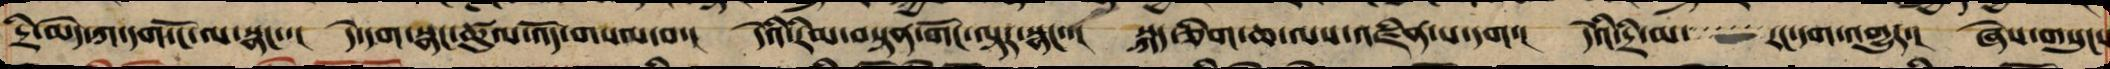དྲི་མེད་ཀ་དག་ངོ་ལ་སྣང་་། དེ་དག་སྣང་ཚུལ་འོད་གསལ་བ་། དེའི་རིམ་བསྟན་གོང་ལྟར་སྣང་་། སྐད་ཅིག་ཆ་ལས་འཛིན་པ་དག་། དེའི་དྲི་མ་ རང་དག་འགྱུར་། ཞེས་གསུངས
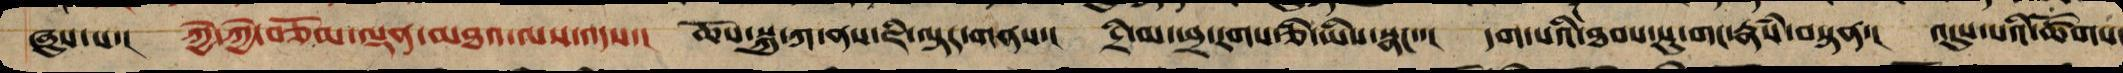ཞུས་པ་། ཀྱེ་ཀྱེ་བཅོམ་ལྡན་མཐའ་ལས་འདས་། ཆོས་སྐུ་ཀ་ནས་ཇི་ལྟར་གནས་། དྲི་མ་ཕྲ་རགས་ཅི་ཡིས་སྣང་་། དག་པའི་ཐབས་སུ་གང་རྣཾས་བསྟན་། འདུས་པའི་ཚོགས་
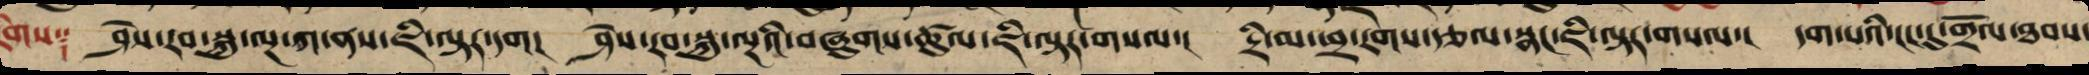གས༑ ཤེས་རབ་སྐུ་ལྔ་ཀ་ནས་ཇི་ལྟར་དག། ཤེས་རབ་སྐུ་ལྔའི་བཞུགས་ཚུལ་ཇི་ལྟར་གསལ་། དྲི་མ་ཕྲ་རགས་རྩལ་སྣང་ཇི་ལྟར་གསལ་། དག་པའི་ངང་དུ་གྲོལ་ཐབས་
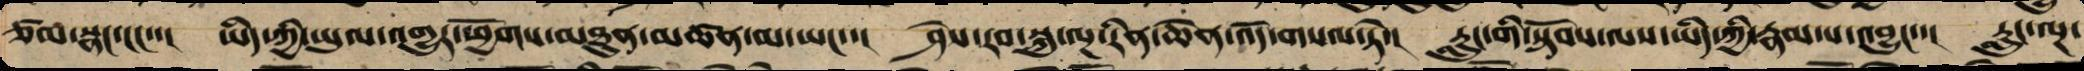ཙམ་སྣང་ངང་་། ཡིད་ཀྱི་ཡུལ་འགྱུར་ཕྱོགས་མཐུན་མཚན་མ་ཡང་་། ཤེས་རབ་སྐུ་ལྔ་རིན་ཆེན་འོད་གསལ་ཏེ་། རླུང་གི་སྟོབས་ལས་ཡིད་ཀྱི་རྣམ་པ་འབྱུང་་། རླུང་ལྔ་
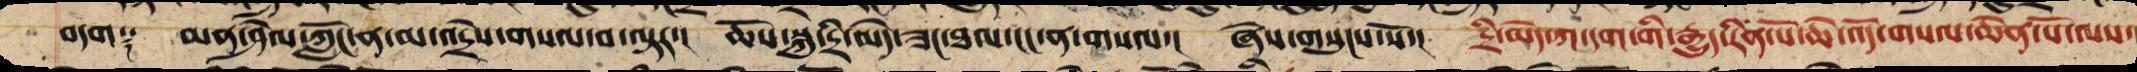བདག༑ མན་ཤེལ་ཀློང་ན་མ་འདྲེས་གསལ་བ་ལྟར་། ཆོས་སྐུ་དྲི་མེད་ཟང་ཐལ་ངང་ན་གསལ་། ཞེས་གསུངས་སོ་། དྲི་མེད་ཀ་དག་གི་རྒྱུད་རིན་པོ་ཆེ་འོད་གསལ་ཆེན་པོ་ལས་
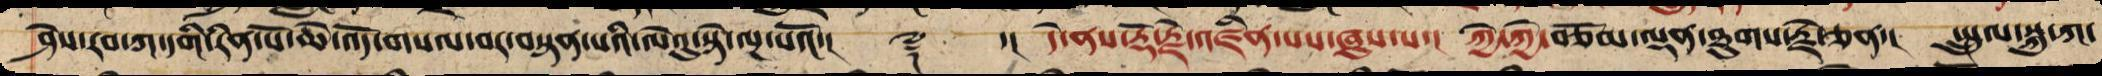ཤེས་རབ་ཀ་དགི་རིན་པོ་ཆེ་འོད་གསལ་བར་བསྟན་པའི་ལེའུ་སྟེ་ལྔ་པའོ་།། ༈ ་། དེ་ནས་རྡོ་རྗེ་འཛིན་པས་ཞུས་པ་། ཀྱེ་ཀྱེ་བཅོམ་ལྡན་ཐུགས་རྗེ་ཅན་། སྤྲུལ་སྐུ་ཀ་
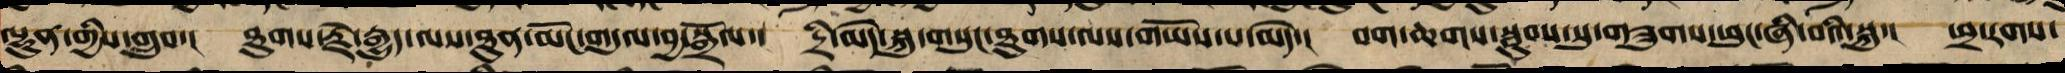ལྷུན་གྱིས་གྲུབ་། ཐུགས་རྗེ་རྒྱུད་ལས་ཐུན་མོང་གདུལ་བྱ་སྒྲོལ་།  དྲི་མེད་སྐུ་གསུང་ཐུགས་ལས་གཡོས་པ་མེད་། བག་ཆགས་སྦུབས་སུ་གཟུགས་ཕུང་ཞི་བའི་སྐུ་། ཕྲ་རགས་
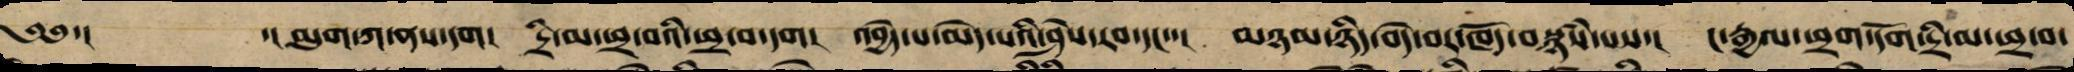༄༅་། ་། མུག་ཀ་ནས་དག།  དྲི་མ་ཕྲ་བའི་ཕྲ་བ་དག།  འབྱེད་པ་མེད་པའི་ཤེས་རབ་དང་་། མཉམ་ཉིད་བདེ་བར་ཁོད་བསྙཾས་པས་།  ང་རྒྱལ་ཕྲག་དོག་དྲི་མ་ཕྲ་བ་
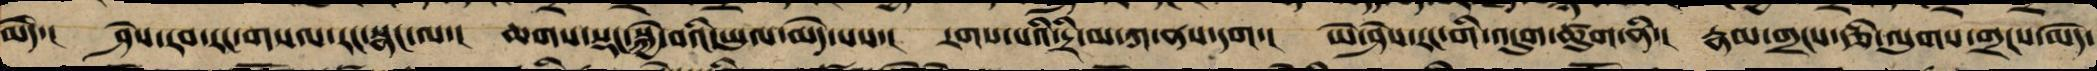མེད་། ཤེས་རབ་རང་གསལ་རང་སྣང་ལ་། ཆགས་སྡང་སྐྱེ་བའི་ཡུལ་མེད་པས་།  རགས་པའི་དྲི་མ་ཀ་ནས་དག་།  ཡེ་ཤེས་རང་གི་འདུག་ཚུལ་ནི་། རྣམ་གྲངས་རྩི་ལུགས་གྲངས་མེད་
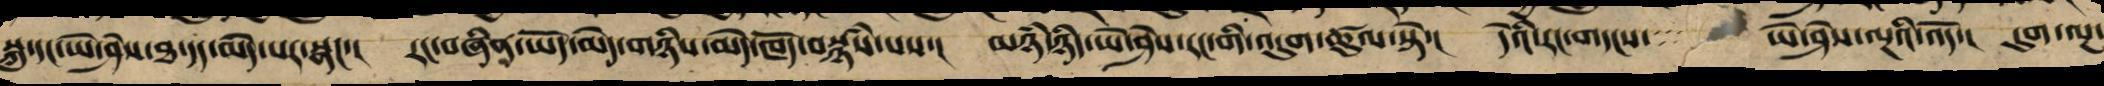སྐུ་དང་ཡེ་ཤེས་ཐ་དད་མེད་པར་སྣང་། རང་བཞིན་ཡོད་མེད་གཉིས་མེད་ཁོད་བསྙཾས་པས་། མཉཾ་ཉིད་ཡེ་ཤེས་རང་གི་འདུག་ཚུལ་སྟེ་། དེའི་རང་གདངས་་་་  ཡེ་ཤེས་ལྔའི་འོད་། དུག་ལྔ་
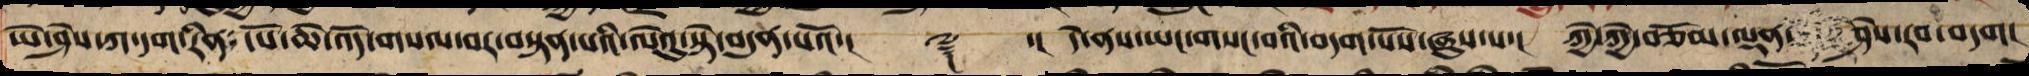ཡེ་ཤེས་ཀ་དག་རིན་པོ་ཆེ་འོད་གསལ་བར་བསྟན་པའི་ལེའུ་སྟེ་བདུན་པའོ་།། ༈ ་། དེ་ནས་ཡང་གསང་བའི་བདག་པོས་ཞུས་པ་། ཀྱེ་ཀྱེ་བཅོམ་ལྡན་  ཤེས་རབ་བདག།
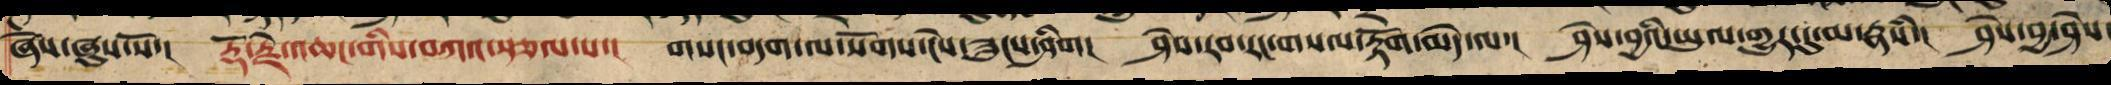ཞེས་ཞུས་སོ་། རྡོ་རྗེ་འཆང་གིས་བཀའ་སྩལ་པ་། གསང་བདག་ལ་སོགས་ངེས་ཟུངས་ཤིག། ཤེས་རབ་རང་གསལ་རྟོག་མེད་ལ་། ཤེས་བྱའི་ཡུལ་གྱུར་དུ་མ་རྣཾས་། ཤེས་བྱ་ཤེས་
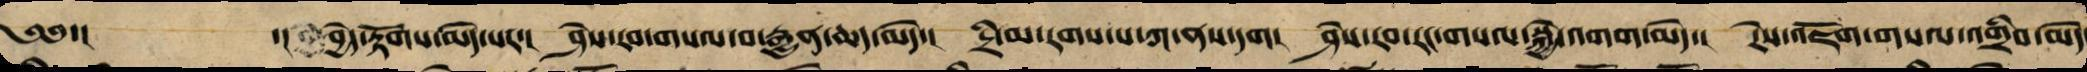༄༅་། ་། བྱེད་རྟོགས་མེད་པར་། ཤེས་རབ་གསལ་བ་རྒྱུན་ཆད་མེད་། དྲི་མ་རགས་པ་ཀ་ནས་དག། ཤེས་རབ་རང་གསལ་སྐྱེ་འགག་མེད་། རེས་འཇོག་གསལ་འགྲིབ་མེད
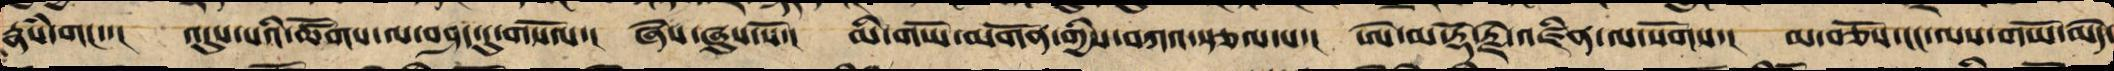རྣཾས་གང་་། འདུས་པའི་ཚོགས་ལ་བཤད་དུ་གསོལ་། ཞེས་ཞུས་སོ་། མི་གཡོ་མགོན་གྱིས་བཀའ་སྩལ་པ་། ཨེ་མ་རྡོ་རྗེ་འཛིན་ལ་སོགས་། མ་བཅོས་ངང་ལས་གཡོ་མེད་
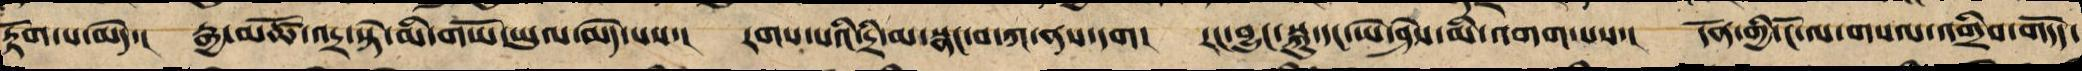རྟོག་པ་མེད་། རྒྱ་མཚོ་འདྲ་སྟེ་མི་གཡོ་ཡུལ་མེད་པས་། རགས་པའི་དྲི་མ་སྣང་བ་ཀ་ནས་དག། རང་བྱུང་སྐུ་དང་ཡེ་ཤེས་མི་འགག་པས་། དོན་གྱི་ངོ་ལ་གསལ་འགྲིབ་གདོད་
